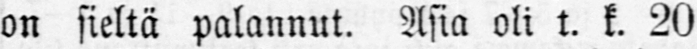on sieltä palannut. Asia oli t. k. 20
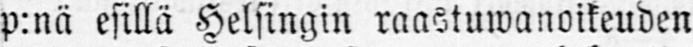p:nä esillä Helsingin raastuwanoikeuden
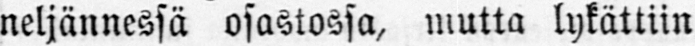neljännessä osastossa, mutta lykättiin
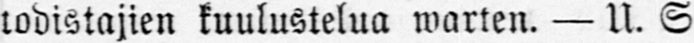todistajien kuulustelua warten. — U. S
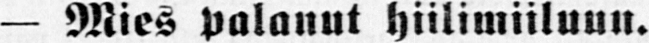— Mies palanut hiilimiiluun.
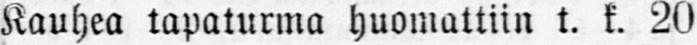Kauhea tapaturma huomattiin t. k. 20
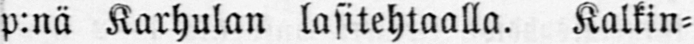p:nä Karhulan lasitehtaalla. Kalkin-
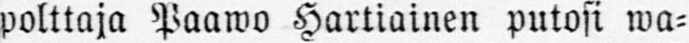polttaja Paawo Hartiainen putosi wa-
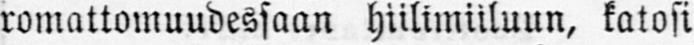romattomuudessaan hiilimiiluun, katosi
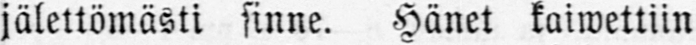jälettömästi sinne. Hänet kaiwettiin
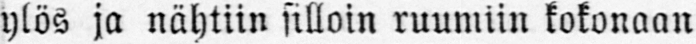ylös ja nähtiin silloin ruumiin kokonaan
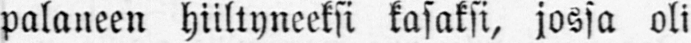palaneen hiiltyneeksi kasaksi, jossa oli
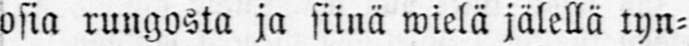osia rungosta ja siinä wielä jälellä tyn-
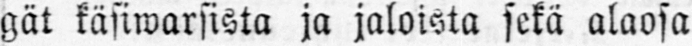gät käsiwarsista ja jaloista sekä alaosa
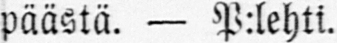päästä. — P:lehti.
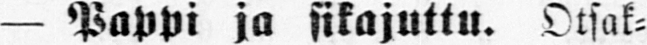— Pappi ja sikajuttu. Otsak-
